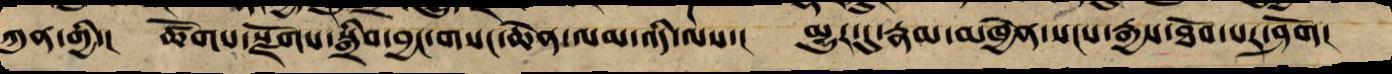ཀུན་གྱི་། ཚོགས་སྫོགས་སྒྲིབ་བྱང་གསང་ཆེན་ལམ་འདི་ལས་། མྱུར་དུ་རྣམ་མཁྱེན་སངས་རྒྱས་ཐོབ་པར་ཤོག།
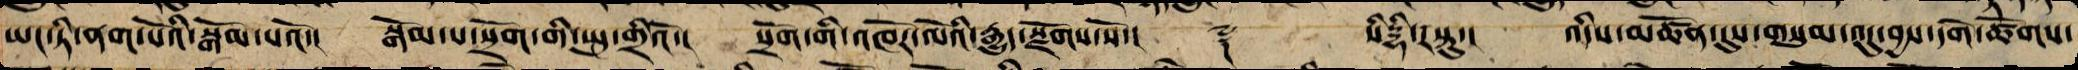ཡང་ཏི་ནག་པོའི་སྒོམ་པའོ་། སྒོམ་པ་སྲོག་གི་སྤུ་གྲིའོ་། སྲོག་གི་འཁོར་ལོའི་རྒྱུད་སྫོགས་སོ།། ༈ སིདྡྷི་རསྟུ་། འདིས་མཚོན་དུས་གསུམ་འདུ་བྱས་དགེ་ཚོགས་
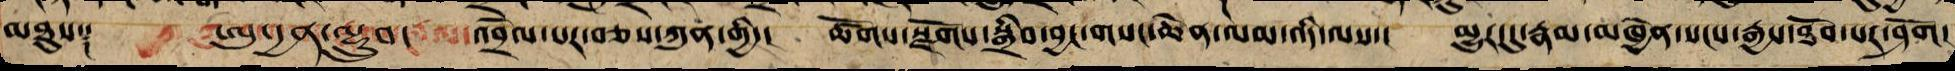མཐུས༑ ཨུ་དྱན་ལྷྲུབ་འབྲེལ་པར་བཅས་ཀུན་གྱི་། ཚོགས་སྫོགས་སྒྲིབ་བྱང་གསང་ཆེན་ལམ་འདི་ལས་། མྱུར་དུ་རྣམ་མཁྱེན་སངས་རྒྱས་ཐོབ་པར་ཤོག།
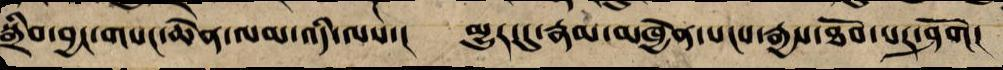སྒྲིབ་བྱང་གསང་ཆེན་ལམ་འདི་ལས་། མྱུར་དུ་རྣམ་མཁྱེན་སངས་རྒྱས་ཐོབ་པར་ཤོག།
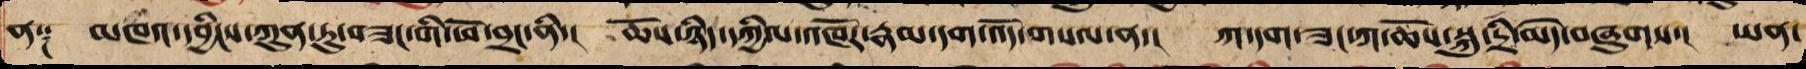ན༑ མཁའ་དབྱིངས་ཀུན་ཏུ་བཟང་གི་ཕོ་བྲང་ནི་། ཆོས་ཉིད་དཀྱིལ་འཁོར་རྣམ་དག་འོད་གསལ་ན་། ཀ་དག་ཟང་ཀ་ཆོས་སྐུ་དྲི་མེད་བཞུགས་། ཡན་
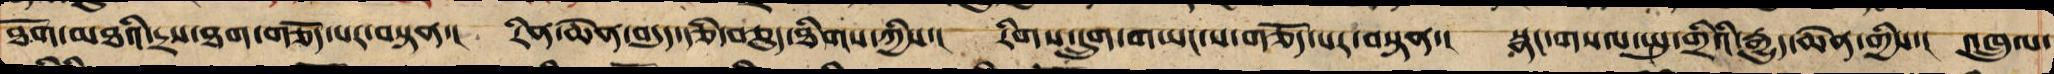ཐོག་མཐའི་དྲས་ཐག་གཅོད་པར་བསྟན་། རིན་ཆེན་བདུད་རྩི་བཅུད་ཐིགས་ཀྱིས་། རིགས་དྲུག་གཡང་ས་གཅོད་པར་བསྟན་། སྣང་གསལ་སྤུ་གྲིའི་རྒྱུད་ཆེན་གྱིས་། འཁྲུལ་
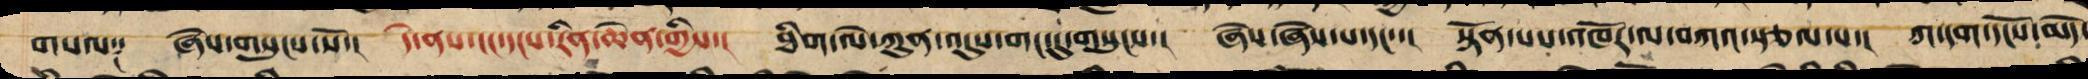གསལ༑ ཞེས་གསུངས་སོ་། དེ་ནས་ངང་དངས་རིན་ཆེན་གྱིས་། ཐིག་ལེ་ཀུན་འདུས་གང་དུ་གསུངས་། ཞེས་ཞེས་པ་དང་་། སྟོན་པས་འཁོར་ལ་བཀའ་སྩལ་པ་། ཀ་དག་དངོས་མེད་
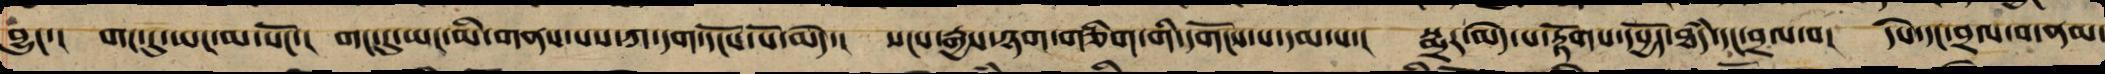བྱུང་། གང་དུ་ཡང་མ་སོང་། གང་དུ་ཡང་མི་གནས་པས་ཀ་དག་དངོས་པོ་མེད་། སངས་རྒྱས་ཉག་གཅིག་གི་དགོངས་པ་དམ་པ་། སྨྲར་མེད་པ་རྟོགས་དཔྱོད་ཐདཾ་དང་བྲལ་བ། དཔེ་དང་བྲལ་བ་ནམ་
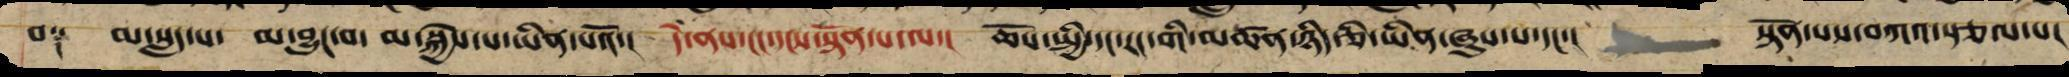བ༑ མ་སླད་པ་ མ་བྱུང་བ་ མ་སྐྱེས་པ་ཡིན་པའོ་། དེ་ནས་ངང་དངས་ཀྱིས་སྟོན་པ་ལ་། ཆོས་སྤྱི་དང་རང་གི་མཚན་ཉིད་ཅི་ཡིན་ཞུས་པ་དང་། སྟོན་པས་བཀའ་སྩལ་པ།
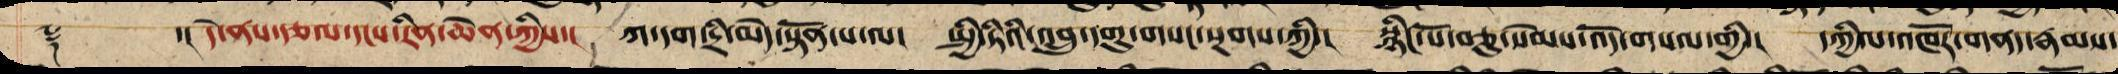༈ ་། དེ་ནས་རྩལ་དངས་རིན་ཆེན་ཀྱིས་། ཀ་དག་དྲི་མེད་སྟོན་པ་ལ། སྤྱི་ཏིའི་འབྲུ་དགུ་གསང་སྔགས་ཀྱི་། སྙིང་པོ་བཅུ་སེམས་འོད་གསལ་གྱི་། དཀྱིལ་འཁོར་གནད་རྣམས་
